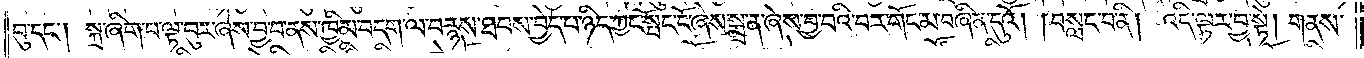བུ་དང༌། སྐྲ་ཞིག་པ་ལྟ་བུར་ཞེས་བྱ་བ་ནས་ཁྱིམ་བདག་ལ་བརྙས་ཐབས་བྱེད་པ་ཉིད་ཀྱང་སྤོང་ངོ་ཞེས་སྨྲ་ན་ཞེས་བྱ་བའི་བར་གོང་མ་བཞིན་དུའོ། །བསླང་བ་ནི། འདི་ལྟར་བྱ་སྟེ། གནས་
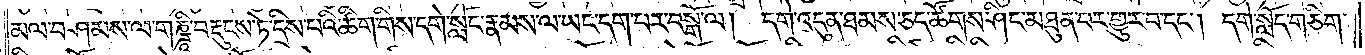མལ་བཤམས་ལ་གཎྜཱི་བརྡུངས་ཏེ་དྲིས་པའི་ཚིག་གིས་དགེ་སློང་རྣམས་ལ་ཡང་དག་པར་བསྒོ་ལ། དགེ་འདུན་ཐམས་ཅད་ཚོགས་ཤིང་མཐུན་པར་གྱུར་པ་དང༌། དགེ་སློང་གཅིག་
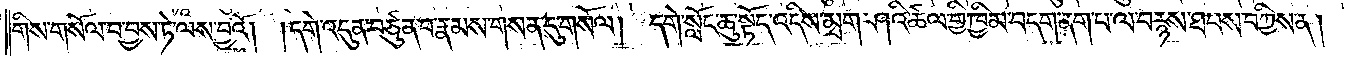གིས་གསོལ་བ་བྱས་ཏེ་ལས་བྱའོ། །དགེ་འདུན་བཙུན་པ་རྣམས་གསན་དུ་གསོལ། དགེ་སློང་ཆུ་སྟོད་འདིས་མྲག་ཤའི་ཚལ་གྱི་ཁྱིམ་བདག་ནག་པ་ལ་བརྙས་ཐབས་བཀྱིས་ན།
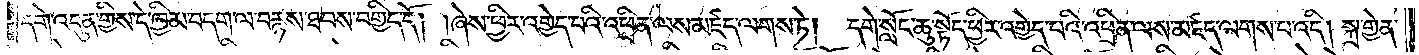དགེ་འདུན་གྱིས་དེ་ཁྱིམ་བདག་ལ་བརྙས་ཐབས་བགྱིད་དོ། །ཞེས་ཕྱིར་འགྱེད་པའི་འཕྲིན་ལས་མཛད་ལགས་ཏེ། དགེ་སློང་ཆུ་སྟོད་ཕྱིར་འགྱེད་པའི་འཕྲིན་ལས་མཛད་ལགས་པ་འདི། སྐྲ་གྱེན་
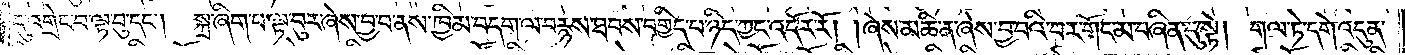དུ་འགྲེང་བ་ལྟ་བུ་དང༌། སྐྲ་ཞིག་པ་ལྟ་བུར་ཞེས་བྱ་བ་ནས་ཁྱིམ་བདག་ལ་བརྙས་ཐབས་བགྱིད་པ་ཉིད་ཀྱང་འདོར་རོ། །ཞེས་མཆི་ན་ཞེས་བྱ་བའི་བར་གོང་མ་བཞིན་དུ་སྟེ། གལ་ཏེ་དགེ་འདུན་
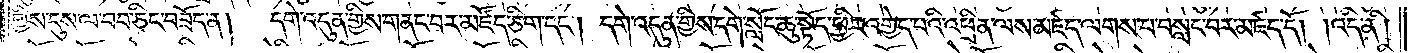གྱིས་དུས་ལ་བབ་ཅིང་བཟོད་ན། དགེ་འདུན་གྱིས་གནང་བར་མཛོད་ཅིག་དང༌། དགེ་འདུན་གྱིས་དགེ་སློང་ཆུ་སྟོད་ཕྱིར་འགྱེད་པའི་འཕྲིན་ལས་མཛད་ལགས་པ་བསླང་བར་མཛད་དོ། །འདི་ནི།
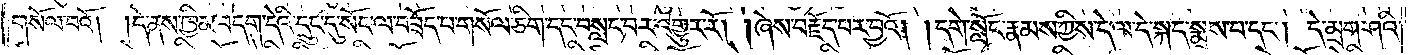གསོལ་བའོ། །དེ་ནས་ཁྱིམ་བདག་དེའི་དྲུང་དུ་སོང་ལ་བཟོད་པ་གསོལ་ཅིག་དང་བསླང་བར་འགྱུར་རོ། །ཞེས་བརྗོད་པར་བྱའོ། །དགེ་སློང་རྣམས་ཀྱིས་དེ་ལ་དེ་སྐད་སྨྲས་པ་དང༌། དེ་མྲག་ཤའི་
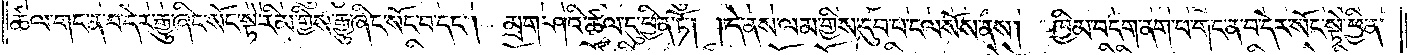ཚལ་གང་ན་བ་དེར་རྒྱུ་ཞིང་སོང་སྟེ་རིམ་གྱིས་རྒྱུ་ཞིང་སོང་བ་དང༌། མྲག་ཤའི་ཚལ་དུ་ཕྱིན་ཏོ། །དེ་ནས་ལམ་གྱིས་དུབ་པ་ངལ་སོས་ནས། ཁྱིམ་བདག་ནག་པ་གང་ན་བ་དེར་སོང་སྟེ་ཕྱིན་
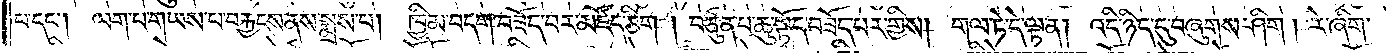པ་དང༌། ལག་པ་གཡས་པ་བརྐྱངས་ནས་སྨྲས་པ། ཁྱིམ་བདག་བཟོད་བར་མཛོད་ཅིག །བཙུན་པ་ཆུ་སྟོད་བཟོད་པར་གྱིས། གལ་ཏེ་དེ་ལྟ་ན། འདི་ཉིད་དུ་བཞུགས་ཤིག །རེ་ཞིག་
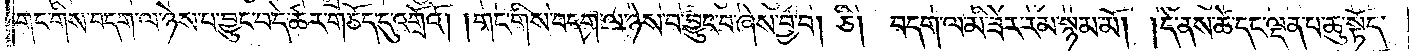གང་གིས་བདག་ལ་ཉེས་པ་བྱུང་བ་དེ་ཚར་གཅོད་དུ་འགྲོའོ། །གང་གིས་བདག་ལ་ཉེས་བ་བྱུང་བ་ཞེས་བྱ་བ། ཅི། བདག་ལ་མི་ཟེར་རམ་སྙམ་མོ། །དེ་ནས་ཚེ་དང་ལྡན་པ་ཆུ་སྟོད་
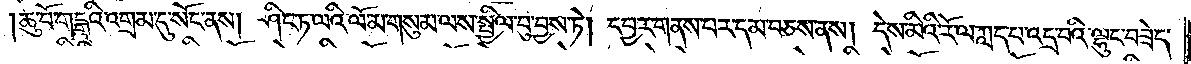ཆུ་བོ་གངྒཱའི་འགྲམ་དུ་སོང་ནས། ཤིང་ཏ་ལའི་ལོ་མ་གསུམ་ལས་སྤྱིལ་བུ་བྱས་ཏེ། དབྱར་གནས་བར་དམ་བཅས་ནས། དེས་མིའི་རོ་ལ་ཀླད་པ་འདྲ་བའི་ལྷུང་བཟེད་
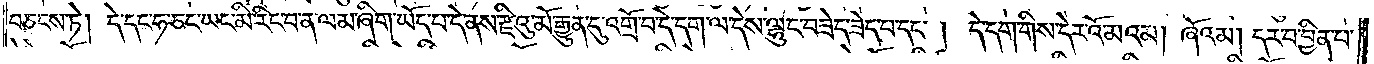བཅངས་ཏེ། དེ་དང་ཧ་ཅང་ཡང་མི་རིང་བ་ན་ལམ་ཞིག་ཡོད་པ་དེ་ནས་རྫིའུ་མོ་རྒྱུན་དུ་འགྲོ་བ་དེ་དག་ལ་དེས་ལྷུང་བཟེད་ཟེད་པ་དང༌། དེ་དག་གིས་དེར་འོ་མའམ། ཞོའམ། དར་བ་བྱིན་པ་
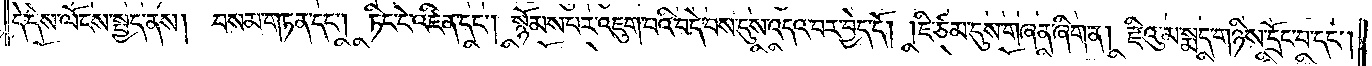དེ་དེས་ལོངས་སྤྱད་ནས། བསམ་གཏན་དང༌། ཏིང་ངེ་འཛིན་དང༌། སྙོམས་པར་འཇུག་པའི་བདེ་བས་དུས་འདའ་བར་བྱེད་དོ། །ཇི་ཙམ་དུས་གཞན་ཞིག་ན། རྫིའུ་མ་སྨད་གཉིས་དྲོང་བ་དང༌།
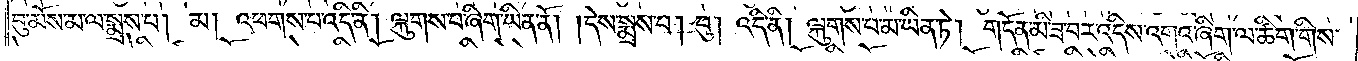བུ་མོས་མ་ལ་སྨྲས་པ། མ། འཕགས་པ་འདི་ནི། ལྐུགས་པ་ཞིག་ཡིན་ནོ། །དེས་སྨྲས་པ། བུ། འདི་ནི། ལྐུགས་པ་མ་ཡིན་ཏེ། གདོན་མི་ཟ་བར་འདིས་འགའ་ཞིག་ལ་ཚིག་གིས་
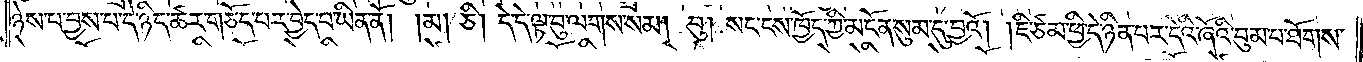ཉེས་པ་བྱས་པ་དེ་ཉིད་ཚར་གཅོད་པར་བྱེད་པ་ཡིན་ནོ། །མ། ཅི། དེ་དེ་ལྟ་བུ་ལགས་སམ། བུ། སང་ངས་ཁྱོད་ཀྱི་མངོན་སུམ་དུ་བྱའོ། །ཇི་ཙམ་ཕྱི་དེ་ཉིན་པར་དེའི་ཞོའི་བུམ་པ་ཐོགས་
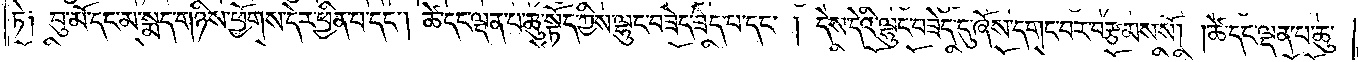ཏེ། བུ་མོ་དང་མ་སྨད་གཉིས་ཕྱོགས་དེར་ཕྱིན་པ་དང༌། ཚེ་དང་ལྡན་པ་ཆུ་སྟོད་ཀྱིས་ལྷུང་བཟེད་ཟེད་པ་དང༌། དེས་དེའི་ལྷུང་བཟེད་དུ་ཞོས་དགང་བར་བརྩམས་སོ། །ཚེ་དང་ལྡན་པ་ཆུ་
